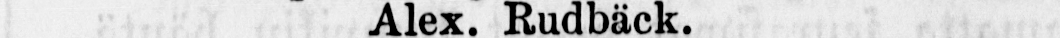Alex. Rudbäck.
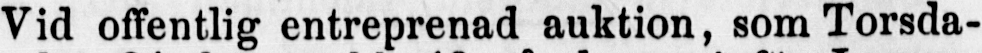Vid offentlig entreprenad auktion, som Torsda-
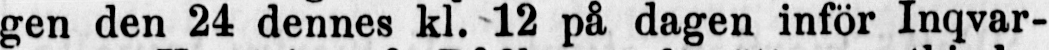gen den 24 dennes kl. 12 på dagen inför Inqvar-
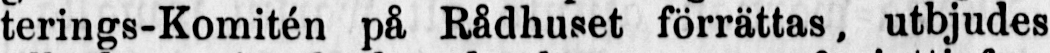terings-Komitén på, Rådhuset förrättas, utbjudes
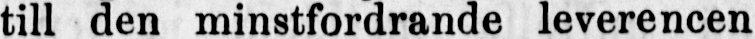till den minstfordrande leverencen af sjuttiofem
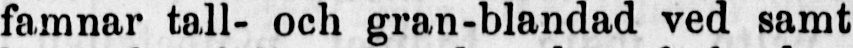famnar tall- och gran-blandad ved samt tjugufem
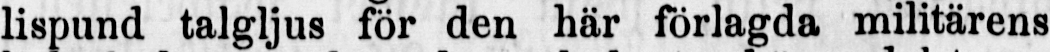lispund talgljus för den här förlagda militärens
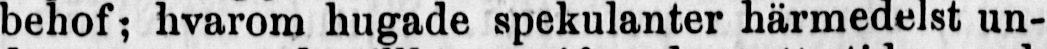behof; hvarom hugade spekulanter härmedelst un-
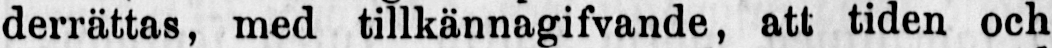derrättas, med tillkännagifvande, att tiden och
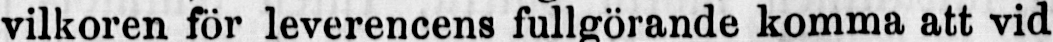vilkoren för leverencens fullgörande komma att vid
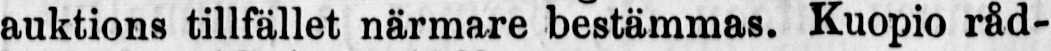auktions tillfället närmare bestämmas. Kuopio råd-
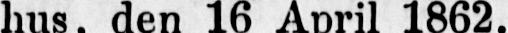hus, den 16 April 1862.
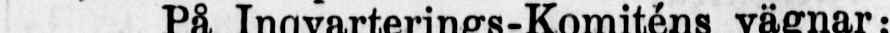På Inqvarterings-Komiténs vägnar:
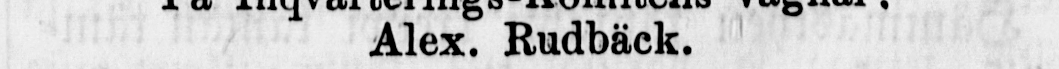Alex. Rudbäck.
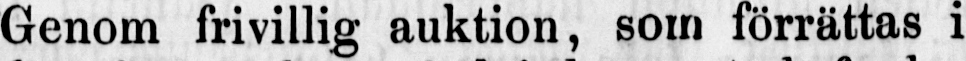Genom frivillig auktion, som f örrättas i
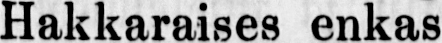Hakkaraises enkas gård i denna stad, freda-
